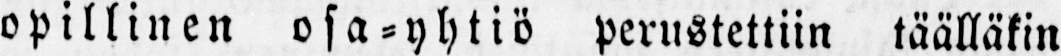opillinen osa-yhtiö perustettiin täälläkin
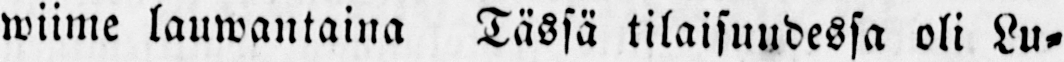wiime lauwantaina Tässä tilaisuudessa oli Lu-
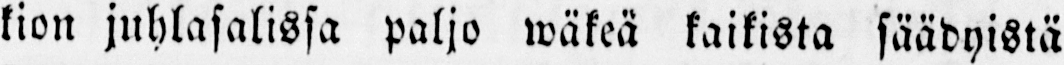kion juhlasalissa paljo wäkeä kaikista säädyistä
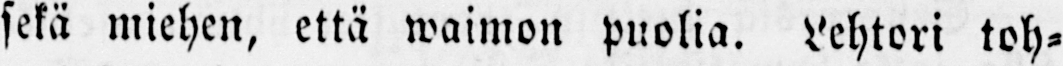sekä miehen, että waimon puolia, Lehtori toh-
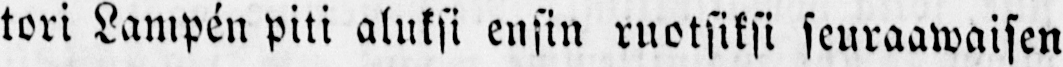tori Lampén piti aluksi ensin ruotsiksi seuraawaisen
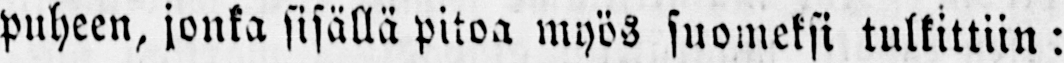puheen, jonka sisällä pitoa myös suomeksi tulkittiin:
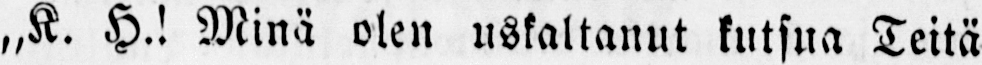„K. H.! Minä olen uskaltanut kutsua Teitä
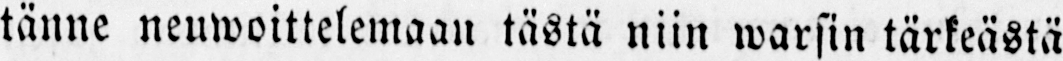tänne neuwoittelemaan tästä niin warsin tärkeästä
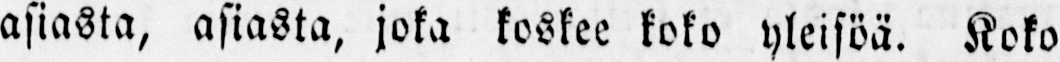asiasta, asiasta, joka koskee koko yleisöä. Koko
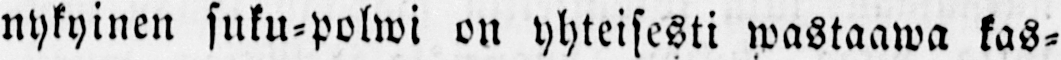nykyinen suku-polwi on yhteisesti wastaawa kas-
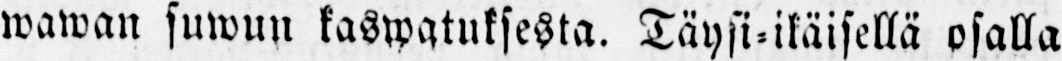wawan suwun kaswatuksesta. Täysi-ikäisellä osalla
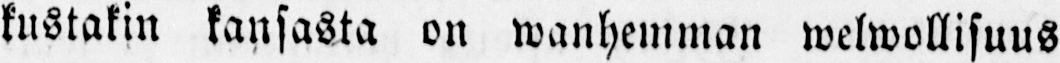kustakin kansasta on wanhemman welwollisuus
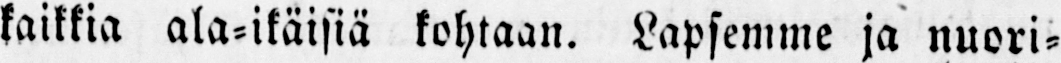kaikkia ala-ikäisiä kohtaan. Lapsemme ja nuori-
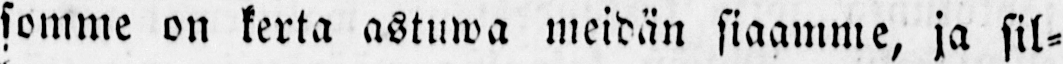somme on kerta astuwa meidän siaamme, ja sil-
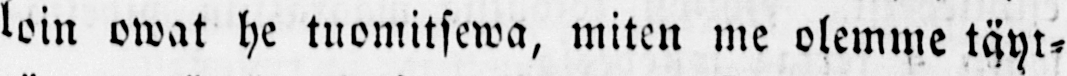loin owat he tuomitsewa, miten me olemme täyt-
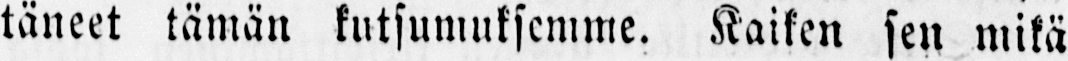täneet tämän kutsumuksemme. Kaiken sen mikä
